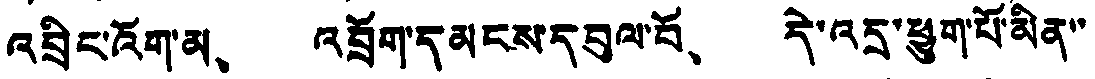འབྲིང་འོག་མ、 འབྲོག་དམངས་དབུལ་བོ、 དེ་འདྲ་ཕྱུག་པོ་མིན་་
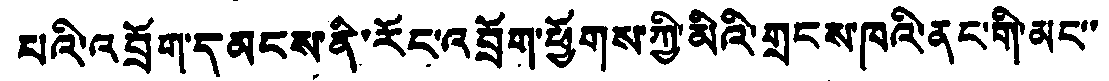པའི་འབྲོག་དམངས་ནི་རོང་འབྲོག་ཕྱོགས་ཀྱི་མིའི་གྲངས་ཁའི་ནང་གི་མང་་
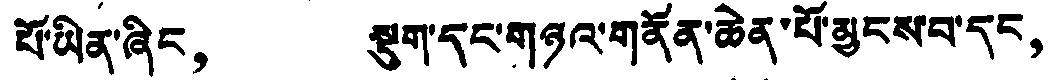པོ་ཡིན་ཞིང， སྡུག་དང་གཉའ་གནོན་ཆེན་པོ་མྱངས་བ་དང，
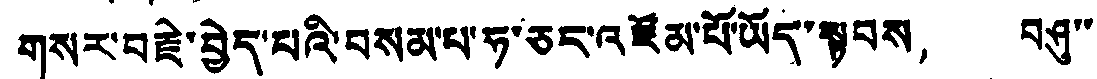གསར་བརྗེ་བྱེད་པའི་བསམ་པ་ཧ་ཅང་འཛོམ་པོ་ཡོད་སྟབས， བཤུ་་
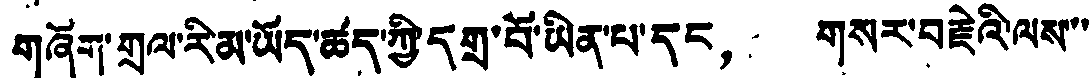གཞོག་གྲལ་རིམ་ཡོད་ཚད་ཀྱི་དགྲ་བོ་ཡིན་པ་དང， གསར་བརྗེའི་ལས་་
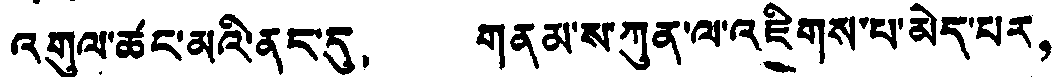འགུལ་ཚང་མའི་ནང་དུ， གནམ་ས་ཀུན་ལ་འཇིགས་པ་མེད་པར，
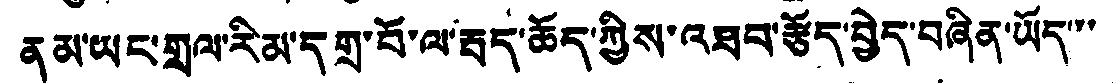ནམ་ཡང་གྲལ་རིམ་དགྲ་བོ་ལ་རྦད་ཆོད་ཀྱིས་འཐབ་རྩོད་བྱེད་བཞིན་ཡོད་་་
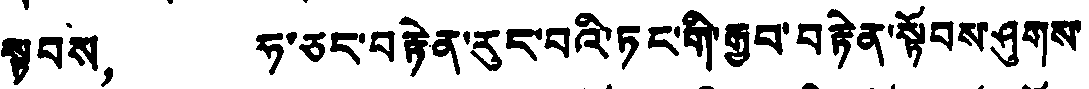སྟབས， ཧ་ཅང་བརྟེན་རུང་བའི་ཏང་གི་རྒྱབ་བརྟེན་སྟོབས་ཤུགས་
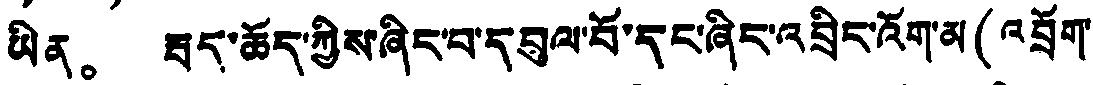ཡིན。 རྦད་ཆོད་ཀྱིས་ཞིང་བ་དབུལ་བོ་དང་ཞིང་འབྲིང་འོག་མ(འབྲོག་
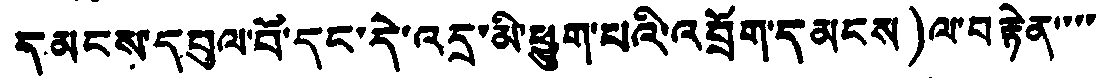དམངས་དབུལ་བོ་དང་དེ་འདྲ་མི་ཕྱུག་པའི་འབྲོག་དམངས)ལ་བརྟེན་་་་
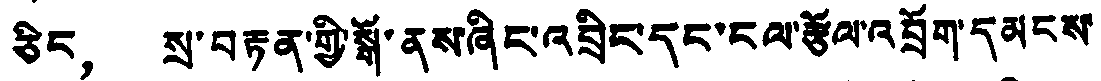ཅིང， སྲ་བརྟན་གྱི་སྒོ་ནས་ཞིང་འབྲིང་དང་ངལ་རྩོལ་འབྲོག་དམངས་
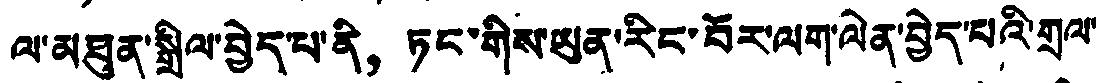ལ་མཐུན་སྒྲིལ་བྱེད་པ་ནི， ཏང་གིས་ཡུན་རིང་བོར་ལག་ལེན་བྱེད་པའི་གྲལ་
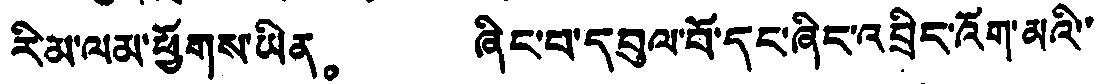རིམ་ལམ་ཕྱོགས་ཡིན。 ཞིང་པ་དབུལ་བོ་དང་ཞིང་འབྲིང་འོག་མའི་་
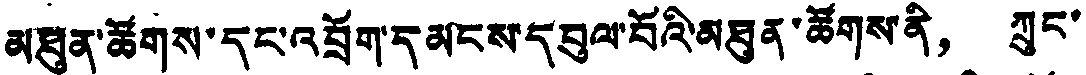མཐུན་ཚོགས་དང་འབྲོག་དམངས་དབུལ་བོའི་མཐུན་ཚོགས་ནི， ཀྲུང་
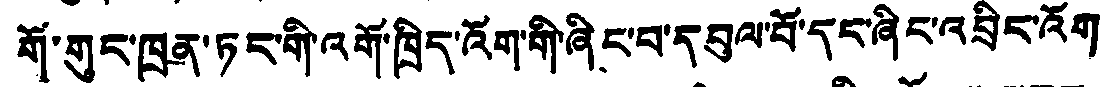གོ་གུང་ཁྲན་ཏང་གི་འགོ་ཁྲིད་འོག་གི་ཞིང་བ་དབུལ་བོ་དང་ཞིང་འབྲིང་འོག
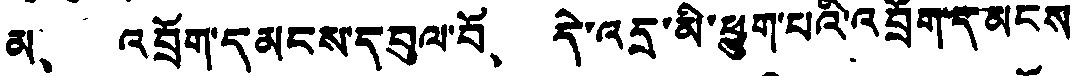མ、 འབྲོག་དམངས་དབུལ་བོ、 དེ་འདྲ་མི་ཕྱུག་པའི་འབྲོག་དམངས་
